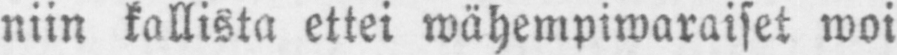niin kollista ettei wähempiwaraiset woi
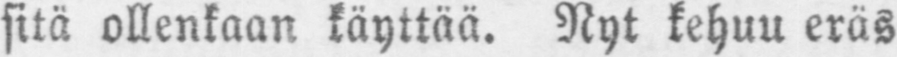sitä ollenkaan käyttää. Nyt kehuu eräs
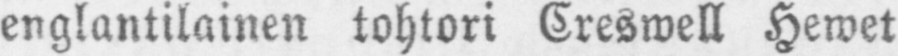englantilainen tohtori Creswell Hewet
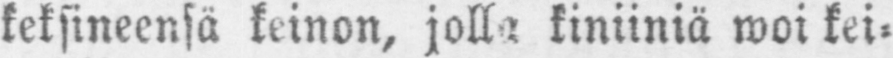keksineensä keinon, jolla kiniiniä woi kei-
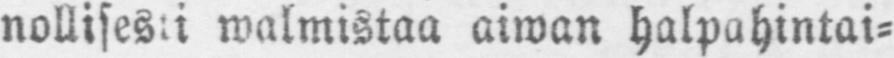nollisesti walmistaa aiwan halpahintai-
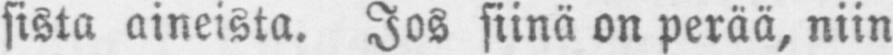sista aineista. Jos siinä on perää, niin
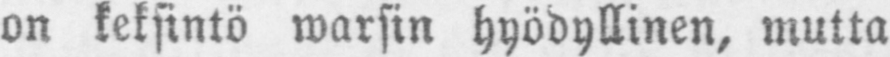on keksintö warsin hyödyllinen, mutta
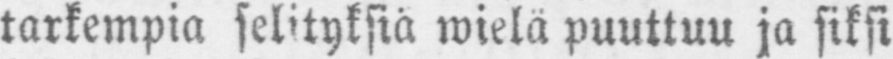tarkempia selityksiä wielä puuttuu ja siksi
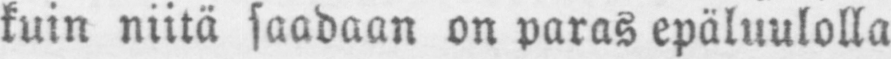kuin niitä saadaan on paras epäluulolla
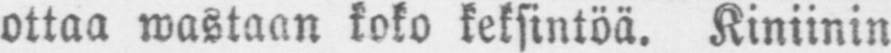ottaa wastaan koko keksintöä. Kiniinin
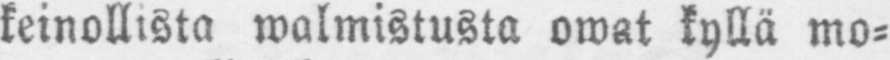keinollista walmistusta owat kyllä mo-
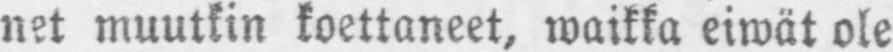net muutkin koettaneet, waikka eiwät ole
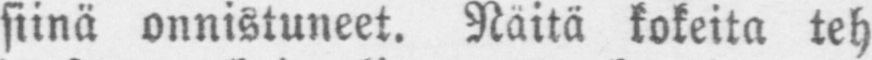siinä onnistuneet. Näitä kokeita teh-
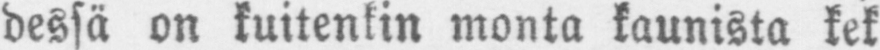dessä on kuitenkin monta kaunista kek-
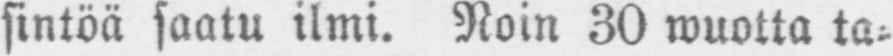sintöä saatu ilmi. Noin 30 wuotta ta-
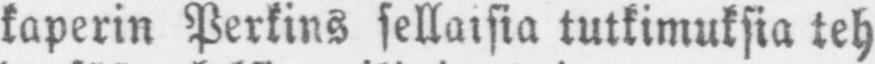kaperin Perkins sellaisia tutkimuksia teh-
